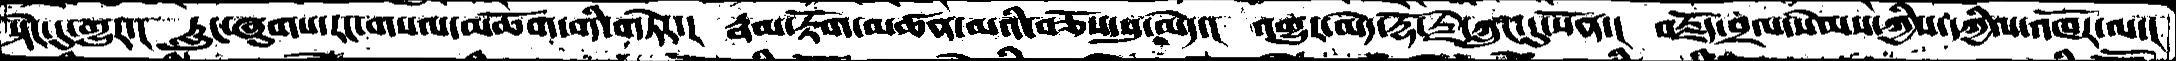སྟེང་དུ་གྱུར་།  རླུང་ཞུགས་རང་གསལ་མཆོག་གི་གཏེར་།  རྣམ་རྟོག་མཚན་མའི་བཅོས་སུ་མེད་།  འགྱུར་མེད་རྡོ་རྗེ་ཀླུང་དུ་སོན་།  བརྗོད་བྲལ་སེམས་ཀྱིས་དཀྱིལ་འཁོར་ལ་།
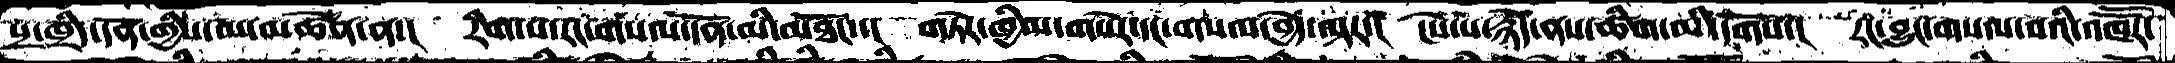སྲ་ཁྲིད་དོན་གྱིས་མ་མཚོན་ན་།  རིག་པ་རང་གསལ་དོན་མི་མཐོང་་།  གཏེར་ཁྱིམ་གསེར་དང་གསལ་བྱེད་ལྟར་།  ངེས་པ་རྙེད་ནས་ཚིག་མི་དགོས་།  རང་བྱུང་གསལ་བའི་འཁཽར་
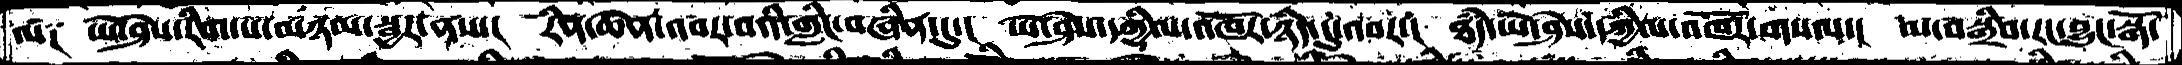ལ༑  ཡེ་ཤེས་རིག་པ་མཉམ་སྦྱར་ནས་།  རིན་ཆེན་འབར་བའི་གླིང་བཞིན་དུ་།  ཡེ་ཤེས་དཀྱིལ་འཁོར་ཉིད་དུ་འབར་།  ཐཾད་ཡེ་ཤེས་དཀྱིལ་འཁོར་གསལ་།  མ་བསྒྲིབ་རང་བྱུང་སྒོ་
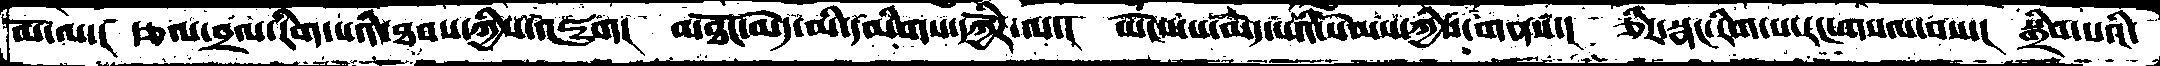མོ་ལ་།  རྩལ་བྲལ་རིག་པའི་ཐབས་ཀྱིས་འཇུག་།  མཐོང་མེད་མི་དམིགས་དཀྱོིར་ལ་།  ཡེངས་པ་མེད་པའི་སེམས་ཀྱི་གནས་།  ཅིར་སྣང་རིག་པ་རང་གསལ་བས་།  སྒྲིབ་པའི་
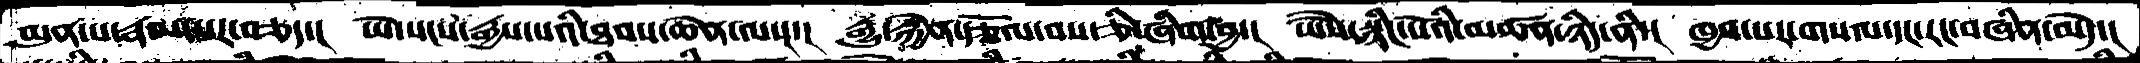མུན་པ་རྣམ་པར་བཅད་།  ཡེ་སངས་རྒྱས་པའི་ཐབས་ཆེན་ལས་།  རྒྱུ་རྐྱེན་རྩོལ་བས་ཅི་ཞིག་བྱ་།  ཡཻས་སྙིང་པོའི་མཚན་ཉིད་ནི་།  ཁྱབ་པར་གསལ་དང་རང་བཞིན་མེད་།
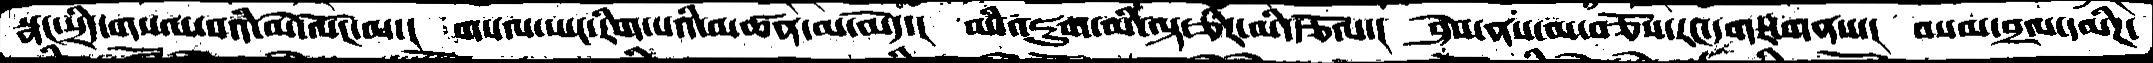སྣང་སྲིད་གསལ་བའི་མེ་ལོང་ལ་།  གསལ་ཡང་རིག་པའི་མཚན་མ་མེད་།  མི་འཇུག་མི་ལྟ་ཅིར་མི་རྩོལ་།  ཤེས་ནས་མ་བཅོས་རང་དགར་གནས་།  བསམ་བྲལ་དམིཌ་
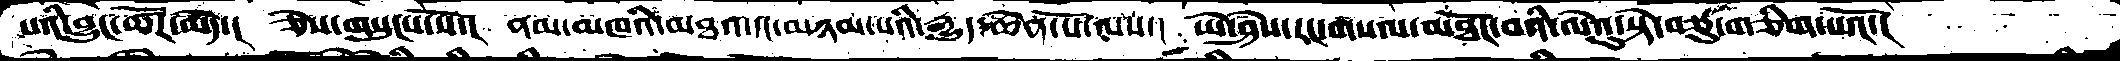པའི་བྱུང་ཚོར་མེད་།  ཅེས་གསུངས་སོ་།  ནམ་མཁའི་མཐའ་དང་མཉམ་པའི་རྒྱུད་ཆེན་པོ་ལས་།  ཡེ་ཤེས་རང་གསལ་མཐོང་བའི་ལེའུ་སྟེ་བཅུ་གཅིག་པའོ་།
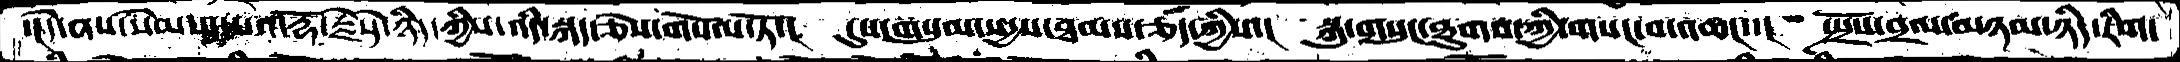་།དེ་ནས་སེམས་དཔའ་རྡོ་རྗེ་དེ་ཉིད་ཀྱིས་འདི་སྐད་ཅེས་གསོལ་ཏོ་།  དུས་གསུམ་སདྱས་ཐམས་ཅད་ཀྱིས་།  སྐུ་གསུང་ཐུགས་ཀྱི་གསང་བ་འཆང་་།  སྤྲོས་བྲལ་མཉམ་ཉིད་རིག་
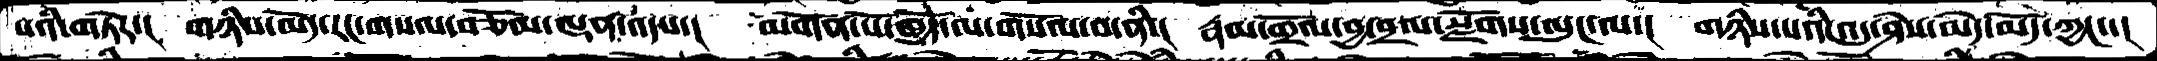པའི་གཏེར་།  གཉིས་མེད་རང་གསལ་བཅོམ་ལྡན་འདས་།  མགོན་པོ་ཁྱོད་ལ་གསོལ་བ་ནི་།  རྣམ་གྲོལ་བྱ་བྲལ་་སྫོགས་ལུང་ལ་།  གཉིས་པའི་འདུ་ཤེས་མེད་མོད་ཀྱང་།
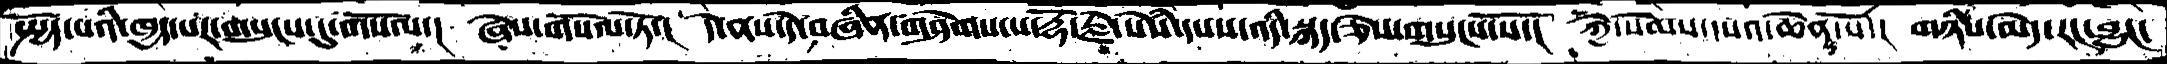སྤྱོད་པའི་ཁྱད་པར་གསུངས་དུ་གསོལ་།  ཞེས་གསོལ་ཏོ་།  དེ་ནས་དེ་བཞིན་གཤེགས་པ་རྡོ་རྗེ་སེཾས་དསས་འདི་སྐད་ཅེས་གསུངས་སོ་།  ཀྱེ་སེམས་དསའ་ཆེན་པོ་།  གཉིས་མེད་རང་བྱུང་
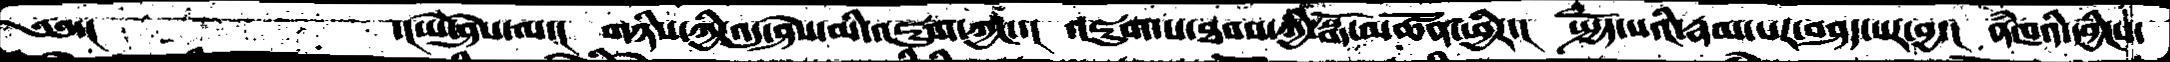༄༅་།          ་།ཡེ་ཤེས་ལ་།  གཉིས་ཀྱི་འདུ་ཤེས་མི་འཇུག་ཀྱང་་།  འཇུག་པ་ཐབས་ཀྱི་སྒོ་མཚོན་ཕྱིར་།  སྤྱོད་པའི་རྣམ་པར་བཤད་པར་བྱ་།  ནཾཁའི་དབྱིངས་
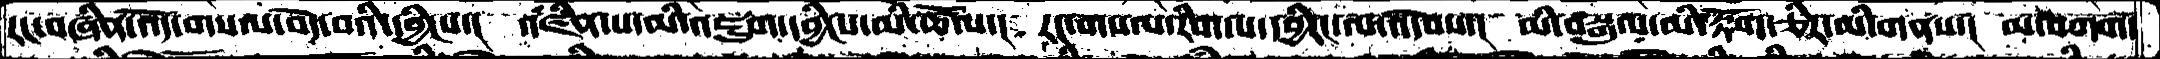རང་བཞིན་འདོ་གསལ་བདེ་བའི་དབྱིངས་།  འཛིན་པ་མི་འཇུག་དབྱིངས་མི་ཚོལ་།  རང་གསལ་རིག་པ་དབྱིངས་ལ་འདེབས་།  མི་བསྒུལ་མི་རྟོག་ཅིར་མི་གནས་།  མ་འགག་
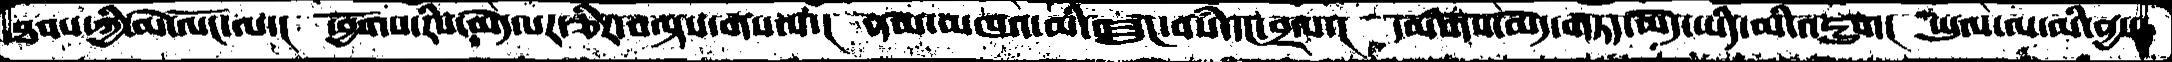ཐབས་ཀྱི་མེ་ལོང་ལ་།  ཕྱོགས་རིས་མེད་པར་ཅིར་བལྟས་གསལ་།  ནམ་མཁའ་མི་བཟུང་བསཾ་དང་བྲལ་།  དམིགས་མེད་གཏད་མེད་ཡིད་མི་འཇུག།  ཡུལ་ལ་མི་ནྱས་
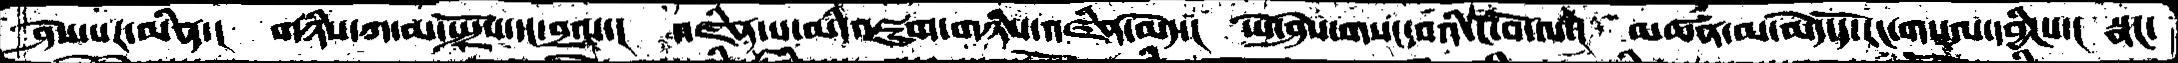ཤེས་པར་མིན་།  གཉིས་ཀ་མ་སྤྲོས་དང་བྲལ་།  འཛིན་པ་མི་འཇུག་གཉིས་འཛིན་མེད་།  ཡེ་ཤེས་གསང་བའི་ངོ་བོ་ལ་།  མཚན་མ་མེད་དོ་རང་གསལ་དབྱིངས་།  སྣང་
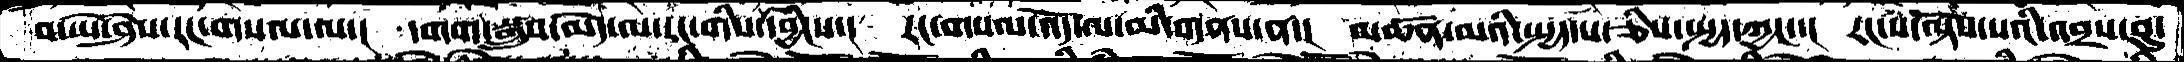བ་ཡེ་ཤེས་རང་གསལ་ལ་།  དགག་སྒྲུབ་མེད་ལ་རང་གིས་དབྱིངས་།  རང་གསལ་འོད་ལ་མི་གནས་ན་།  མཚན་མའི་སྤྱད་པ་ཅིས་སྤྱད་ཀྱང་་།  རང་ས་ལྟོས་པའི་འབྲས་བུ་
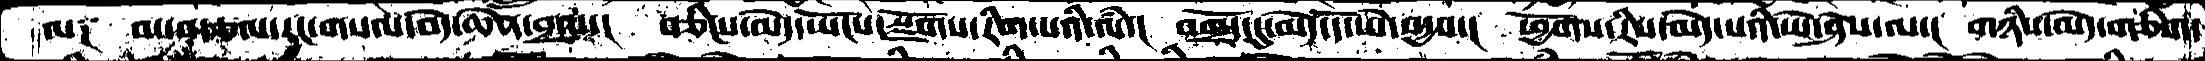ལ༑ མ་བདཅལ་རང་གསལ་བདེ་ཆེན་བྲལ་།  བཅིངས་མེད་ཡོངས་སྫོགས་རིག་པའི་ལཾ་།  བགྲོད་དུ་མེད་དོ་ཡེ་སདྱས་།  ཕྱོགས་རིས་མེད་པའི་ཡེ་ཤེས་ལ་།  གཉིས་མེད་གཅིག་
